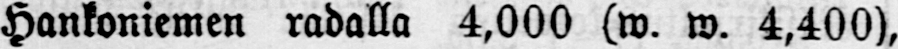Hankoniemen radalla 4,000 (w. w. 4,400),
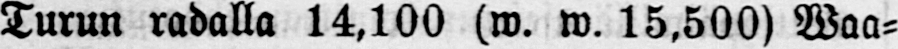Turun radalla 14,100 (w. w. 15,500) Waa-
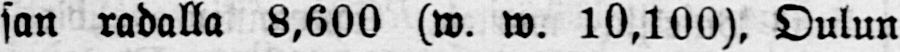san radalla 8,600 (w. w. 10,100). Oulun
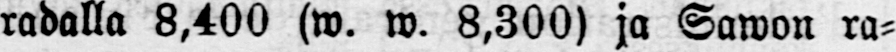radalla 8,400 (w. w. 8,300) ja Sawon ra-
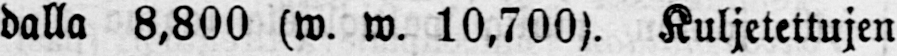dalla 8,800 (w. w. 10,700). Kuljetettujen
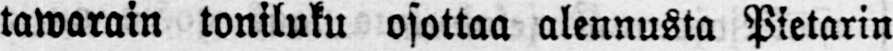tawarain toniluku osottaa alennusta Pietarin
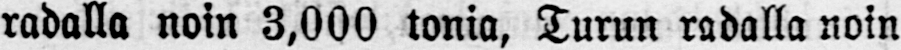radalla noin 3,000 tonia, Turun radalla noin
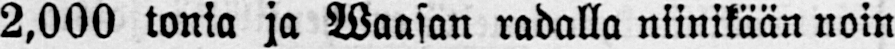2.000 tonia ja Waasan radalla niinikään noin
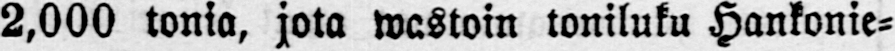2.000 tonia, jota wastoin toniluku Hankonie-
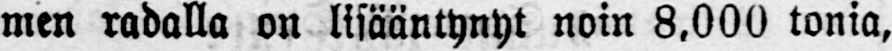men radalla on lisääntynyt noin 8.000 tonia,
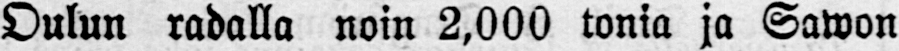Oulun radalla noin 2,000 tonia ja Sawon
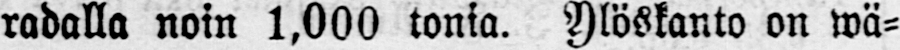radalla noin 1,000 tonia. Ylöskanto on wä-
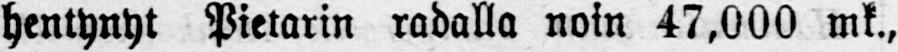hentynyt Pietarin radalla noin 47,000 mk.,
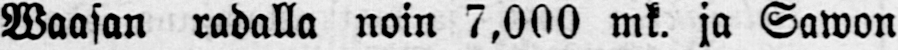Waasan radalla noin 7,000 mk. ja Sawon
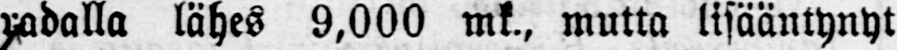radalla lähes 9,000 mk., mutta lisääntynyt
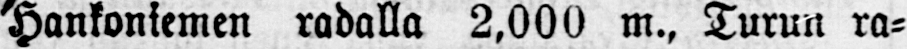hankoniemen radalla 2,000 m., Turun ra-
